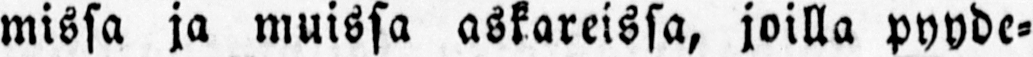missa ja muissa askareissa, joilla pyyde-
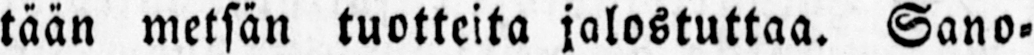tään metsän tuotteita jalostuttaa. Sano-
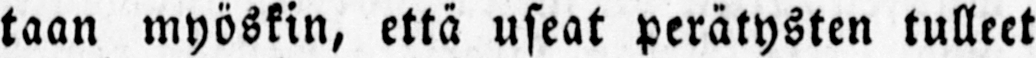taan myöskin, että useat perätysten tulleet
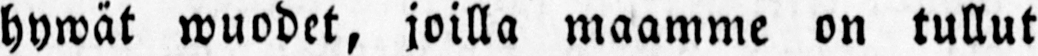hywät wuodet, joilla maamme on tullut
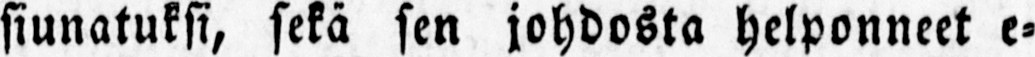siunatuksi, sekä sen johdosta helponneet e-
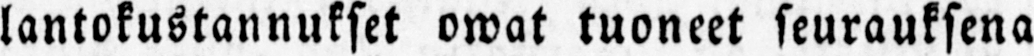lantokustannukset owat tuoneet seurauksena
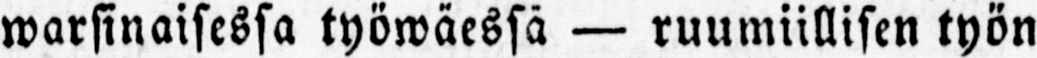warsinaisessa työwäessä — ruumiillisen työn
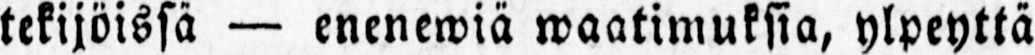tekijöissä — enenewiä waatimuksia, ylpeyttä
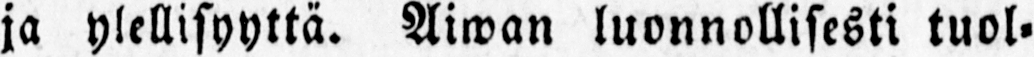ja ylellisyyttä. Aiwan luonnollisesti tuol-
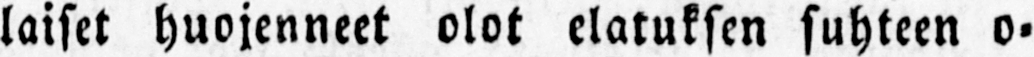laiset huojenneet olot elatuksen suhteen o-
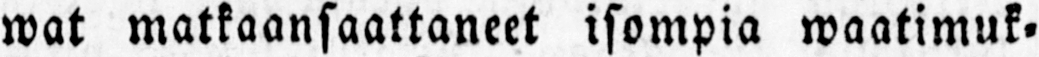wat matkaansaattaneet isompia waatimuk-
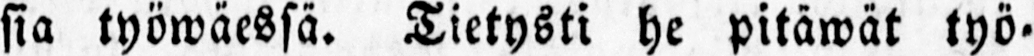sia työwäessä. Tietysti he pitäwät työ-
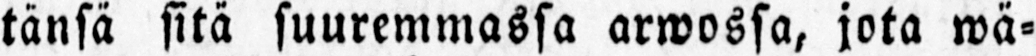tänsä sitä suuremmassa arwossa, jota wä-
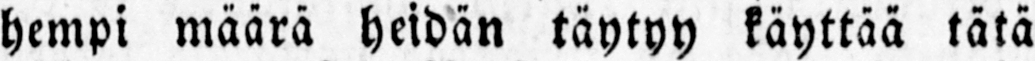hempi määrä heidän täytyy käyttää tätä
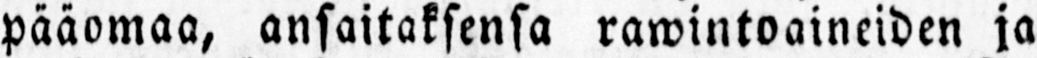pääomaa, ansaitaksensa rawintoaineiden ja
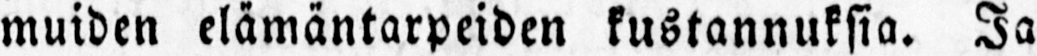muiden elämäntarpeiden kustannuksia. Ja
